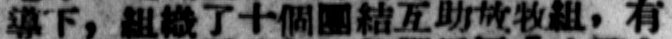導下，組織了十個團結互助放牧組，有
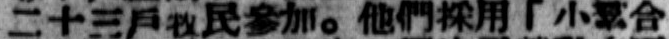二十三戶牧民參加。他們採用「小羣合
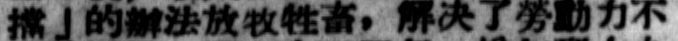擋」的辦法放牧牲畜，解決了勞動力不
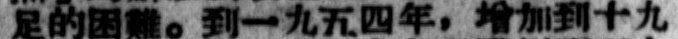足的困難。到一九五四年，增加到十九
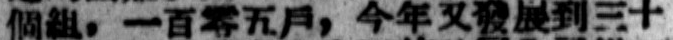個組，一百零五戶，今年又發展到三十
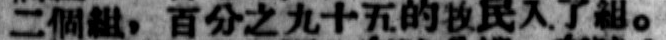二個組，百分之九十五的牧民入了組。
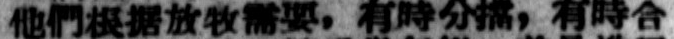他們根據放牧需要，有時分擋，有時合
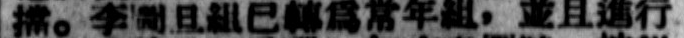擋。李圖且組已轉爲常年組，並且進行
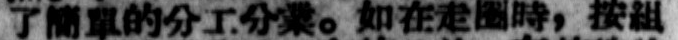了簡單的分工分業。如在走圈時，按組
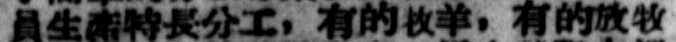員生產特長分工，有的牧羊，有的放牧
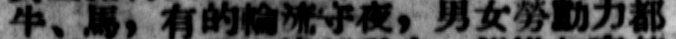牛、馬，有的輪流守夜，男女勞動力都
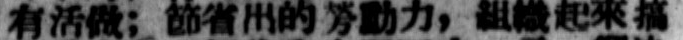有活做；節省出的勞動力，組織起來搞
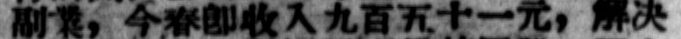副業，今春卽收入九百五十一元，解決
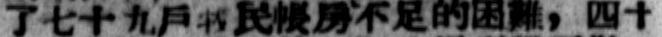了七十九戶牧民帳房不足的困難，四十
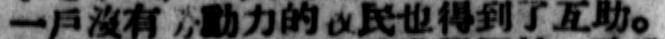一戶沒有勞動力的牧民也得到了互助。
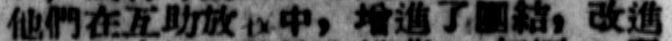他們在互助放牧中，增進了團結，改進
